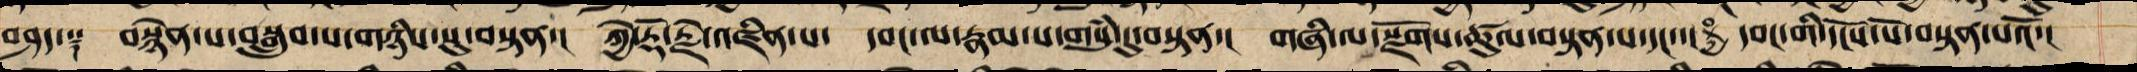བཤད༈   བསྙེན་པ་བསྒྲུབ་པ་གཉིས་སུ་བསྟན་།   ཀྱེ་རྡོ་རྗེ་འཛིན་པ་   དབང་ལ་རྣམ་པ་གསུཾ་དུ་བསྟན་།   གཞི་ལ་རྫོགས་ཚུལ་བསྟན་པ་དང་་།   དབང་གི་དངོས་པོ་བསྟན་པའོ་།
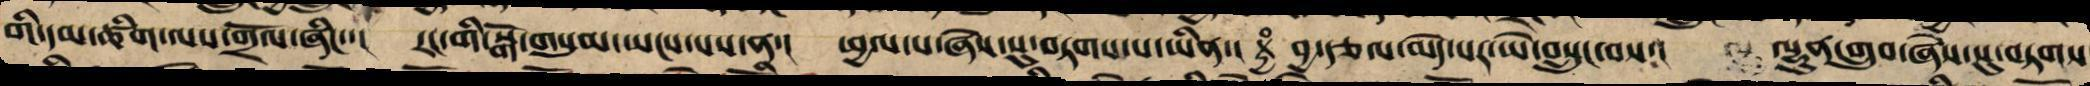གི་དམ་ཚིག་ལས་གྲོལ་ཞིང་་།    རང་གི་སྒོ་གསུམ་སྤངས་པས་ན་།   ཕྱལ་པ་ཞེས་སུ་བཏགས་པ་ཡིན་།    བྱ་རྩལ་མེད་པར་ཡེེེེེེེ་བསྲུངས་བསའ     ལྷུན་གྲུབ་ཅེས་སུ་བཏགས
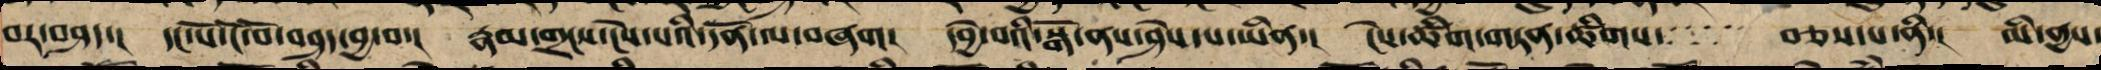བར་བཤད།   དང་པོ་ངོ་བོ་བཤད་བྱ་བ།   རྣམ་གྲངས་ངེས་པའི་དོན་ལ་བཞག་   དབྱེ་བའི་སྒོ་ནས་ཤེས་པ་ཡིན་།   ངེས་ཚིག་གཏན་ཚིགས་    བཅས་པ་ནི་།   མི་ནྱས་
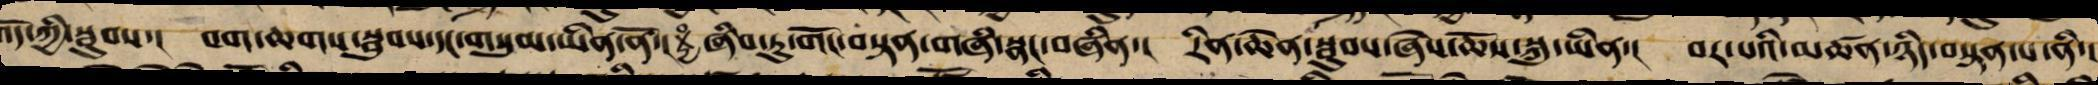འོད་ཀྱི་སྦུབས་།   བག་ཆགས་སྦུབས་དང་གསུམ་ཡིན་ནོ་།    ཞིབ་ཏུ་གོང་བསྟན་གཞི་སྣང་བཞིན་།    རིན་ཆེན་སྦུབས་ཞེས་ཆོས་སྐུ་ཡིན་།   བར་པའི་མཚན་ཉིད་བསྟན་པ་ནི་།
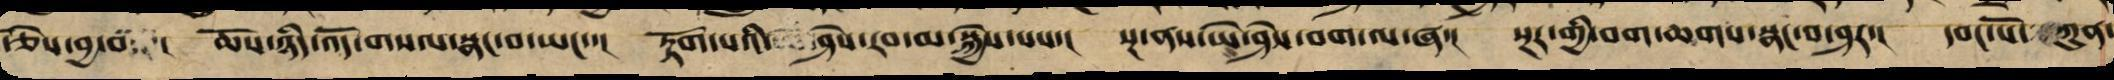་ཅེས་བྱ་བ།    ཆོས་ཉིད་འོད་གསལ་སྣང་བ་ཡང་་།   རྟོག་པའི་ཤེས་རབ་མ་སྐྱེས་པས་།   སྔ་ནས་ཡེ་ཤེས་བག་ལ་ཞ་།   སྔར་གྱི་བག་ཆགས་སྣང་བ་ཤར།   དབང་པོ་ཀུན་
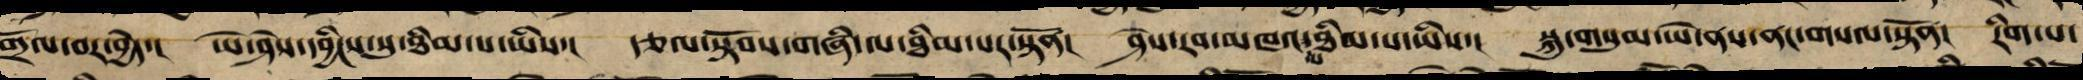གྲོལ་བར་བྱེད། །ཡེ་ཤེས་དབྱིངས་སུ་ཐིམ་པ་ཡིས།  རྩལ་རྟོག་གཞི་ལ་ཐིམ་པར་སྟོན། ཤེས་རབ་མཁའ་ལ་ཐིམ་པ་ཡིས།  སྐུ་གསུམ་ཡེ་ནས་ནང་གསལ་སྟོན། རིག་པ་
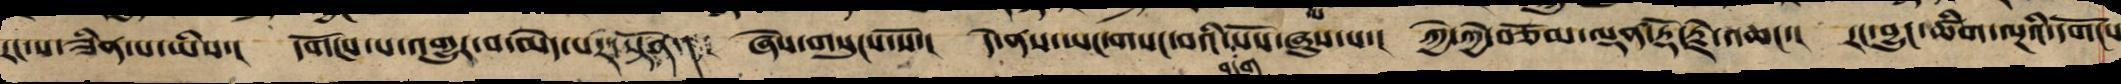རང་ས་ཟིན་པ་ཡིས་། དགོངས་པ་འགྱུར་བ་མེད་པར་སྟོན་།  ཞེས་གསུངས་སོ་།  དེ་ནས་ཡང་གསང་བའི་བདག་པོས་ཞུས་པ་། ཀྱེ་ཀྱེ་བཅོམ་ལྡན་རྡོ་རྗེ་འཆང་།  རང་བྱུང་ཚིག་ལྔའི་དགོངས་
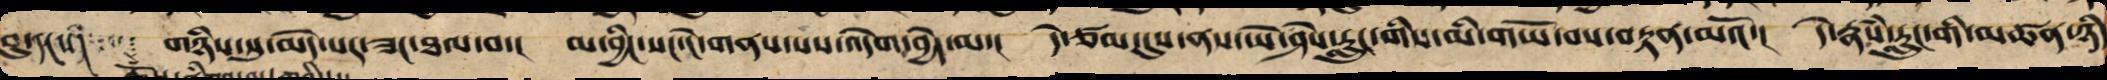བུ་དང་ད།  གཉིས་སུ་མེད་པར་ཟང་ཐལ་བ་།   མ་བྱིང་སང་ངེ་གནས་པས་འདེག་བྱེད་མ་།   དེ་ཙམ་དུས་ནས་ཡེ་ཤེས་རླུང་གིས་མི་གཡོ་བས་བརྟན་མའོ་།   དེ་རྣཾས་རླུང་གི་མཚན་ཉིད་
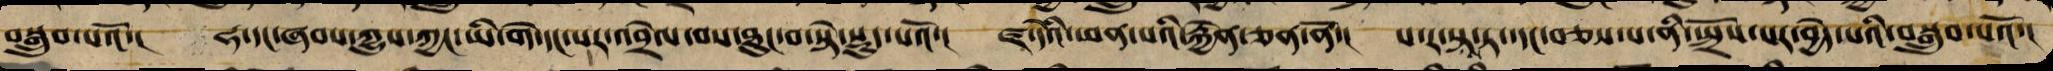བསྒྲུབ་པའོ། །ཧ་དང་ཞབས་ཀྱུས་ཀྱང་ཡི་གེ་དང་སར་འབྲེལ་བས་ཐུང་བ་སྟེ་སྡུད་པའོ་། ཛ་དེའི་ཕན་པའི་རྐྱེན་ཅན་ནོ་། པ་ར་སྟས་ཏ་དང་བཅས་པ་ནི་སྤྲོས་པར་བྱེད་པའི་བསྒྲུབ་པའོ། །
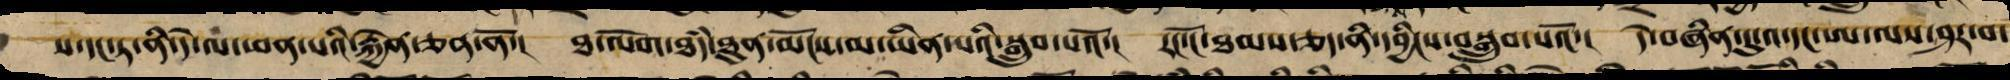ས་དང་ཏ་ནི་དེ་ལ་ཕན་པའི་རྐྱེན་ཅན་ནོ་། ཐ་ལོག་ཐམས་ཅད་ཐུན་མོང་མ་ཡིན་པའི་སྒྲུབ་པའོ་། རང་ངོ་ཐམས་ཅད་ནི་དབྱིངས་བསྒྲུབ་པའོ་། དེ་བཞིན་དུ་འ་དང་ཨ་ལས་ཤར་བ་
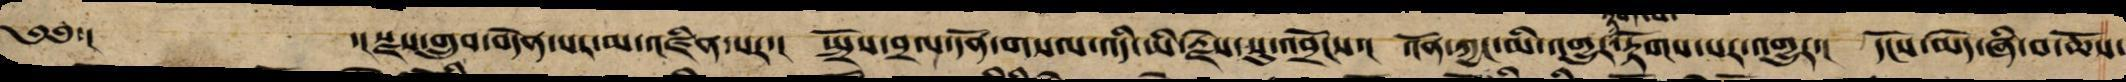༄༅། རྫས་གྲུབ་བདེན་པར་མ་འཛིན་པར། སྤྲོས་བྲལ་དོན་གསལ་འདི་ཡི་རྗེས་སུ་འབྲངས། འོན་ཀྱང་མི་འགྱུར་རྟག་པ་རྟོགས་པར་འགྱུར། དངོས་མེད་ཞི་བ་ཆོས་
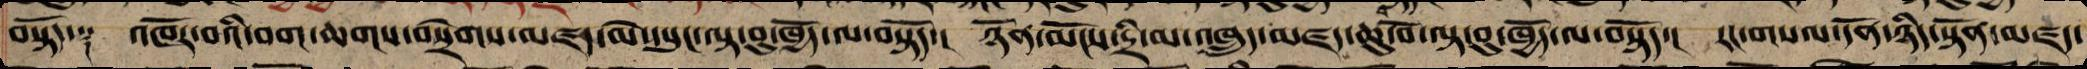བསྟོད༈  འཁོར་བའི་བག་ཆགས་བསྲེག་མཛད་མེ་དཔུང་ལྟ་བུ་ཁྱོད་ལ་བསྟོད། ཉོན་མོངས་དྲི་མ་འཁྲུད་མཛད་ཆུ་བོ་ལྟ་བུ་ཁྱོད་ལ་བསྟོད། རང་གསལ་དོན་ཉིདསྟོན་མཛད་
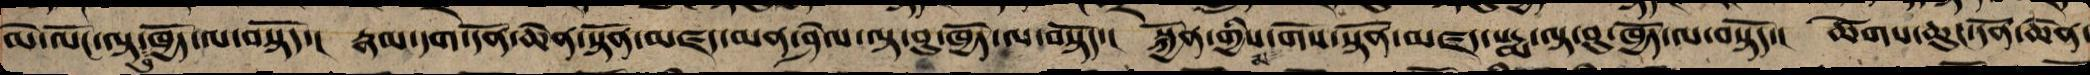མེ་ལོང་ལྟ་བུ་ཁྱོད་ལ་བསྟོད། རྣམ་དག་དོན་ཆེན་སྟོན་མཛད་མན་ཤེལ་ལྟ་བུ་ཁྱོད་ལ་བསྟོད། སྐྱོན་གྱིས་མ་གོས་སྟོན་མཛད་པད་མ་ལྟ་བུ་ཁྱོད་ལ་བསྟོད། ཚེགས་ཆུང་དོན་ཆེན་
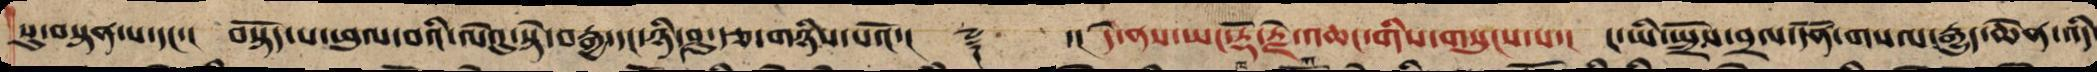སུ་བསྟན་པ་དང་། བསྟོད་པ་ཕུལ་བའི་ལེའུ་སྟེ་བརྒྱ་དང་ཉི་ཤུ་རྩ་གཉིས་པའོ།། ༈ །དེ་ནས་ཡང་རྡོ་རྗེ་འཆང་གིས་གསུངས་པ། ང་ཡི་སྤྲོས་བྲལ་དོན་གསལ་རྒྱུད་ཆེན་འདི
